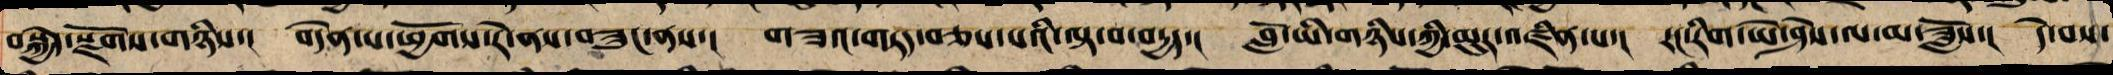བསྐྱེད་སྫོགས་གཉིས་། བདེན་པ་ཕྱོགས་རེ་ནས་བཟུང་ནས་། གཟའ་གཏད་བཅས་པའི་ལྟ་བ་བརྒྱད་། བློ་ཡུལ་གཉིས་ཀྱི་མུར་འཛིན་པས་། རང་རིག་ཡེ་ཤེས་ལ་མ་ཟློས་། དེ་བས་
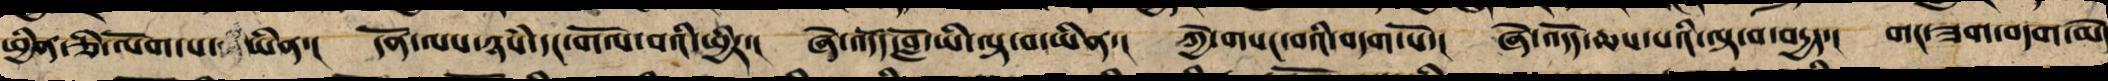ཕྱིན་ཅི་ལོག་པ་ཡིན་། དོན་ལས་ཉཾས་དང་གོལ་བའི་ཕྱིར་། ཞེ་འདོད་བློ་ཡི་ལྟ་བ་ཡིན་། ཀྱེ་གསང་བའི་བདག་པོ་། ཞེ་འདོད་ཆས་པའི་ལྟ་བ་བདྱད་། གང་ཟག་བདག་མེད་
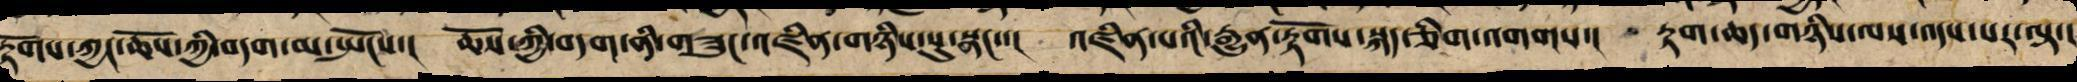རྟོགས་ཀྱང་ཆོས་ཀྱི་བདག་མ་སྤོངས་། ཆོས་ཀྱི་བདག་ནི་གཟུང་འཛིན་གཉིས་སུ་སྣང་་། འཛིན་པའི་རྒྱུན་རྟོག་སྐད་ཅིག་འགགས་། རྟག་ཆད་གཉིས་ལས་འདས་པར་ལྟ་།
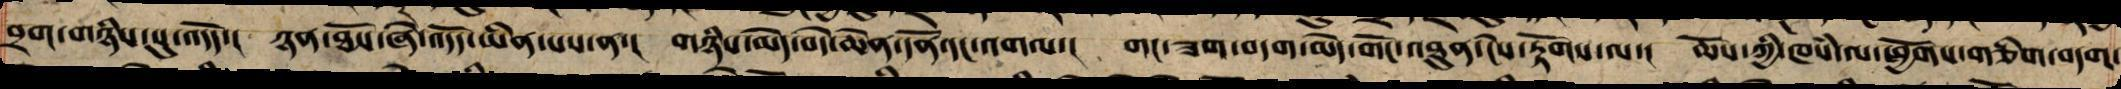བྲག་གཉིས་སུ་འདོད་། ཉན་ཐོས་ཞེ་འདོད་ཡིན་པས་ན་། གཉིས་མེད་བདེ་ཆེན་དོན་དང་འགལ་། གང་ཟག་བདག་མེད་གང་མཐུན་ངེས་རྟོགས་ལ་། ཆོས་ཀྱི་ཁཾས་ལ་ཕྱོགས་གཅིག་བདག་
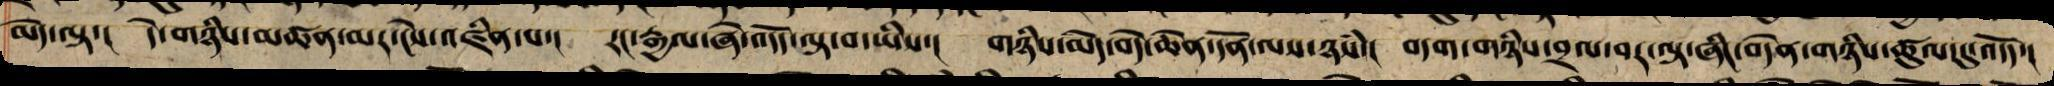མེད་ལྟ་། དེ་གཉིས་མཚན་མར་ངེས་འཛིན་པ་། རང་རྒྱལ་ཞེ་འདོད་ལྟ་བ་ཡིས་། གཉིས་མེད་བདེ་ཆེན་དོན་ལས་ཉཾས་། བདག་གཉིས་བྲལ་བར་ལྟ་ཞིང་བདེན་གཉིས་ཚུལ་དུ་འདོད་།
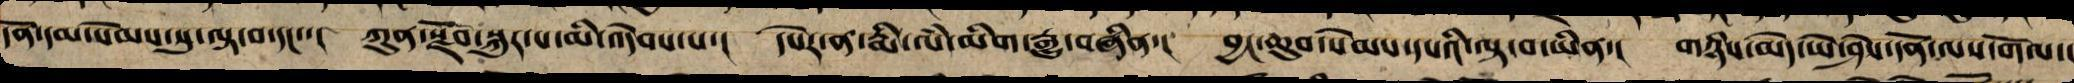དོན་དམ་སེམས་སུ་ལྟ་བ་དང་་། ཀུན་སྫོབ་སྐུར་པ་མི་འདེབས་པ་། དཔེར་ན་རྨི་ལཾ་སྨིག་རྒྱུ་བཞིན་། བྱང་ཆུབ་སེམས་དཔའི་ལྟ་བ་ཡིན་། གཉིས་མེད་ཡེ་ཤེས་དོན་ལས་གོལ་།
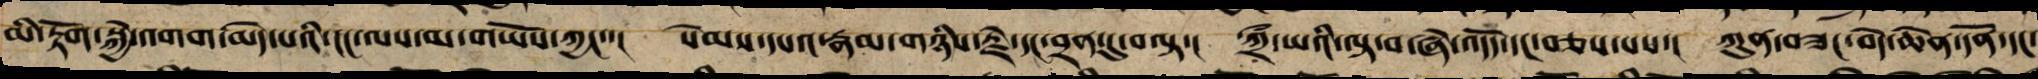མི་རྟོག་སྐྱེ་འགག་མེད་པའི་ངང་ལས་མ་གཡོས་ཀྱང་་། སེམས་དཔའ་རྣམ་གཉིས་རྗེ་དང་བྲན་དུ་བལྟ་། ཀྲྀ་ཡའི་ལྟ་བ་ཞེ་འདོད་དང་བཅས་པས་། ཀུན་བཟང་བདེ་ཆེན་དོན་དང་
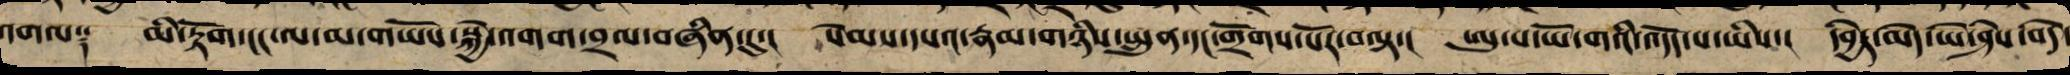འགལ༑ མི་རྟོག་ངང་ལས་མ་གཡོས་སྐྱེ་འགག་བྲལ་བཞིན་དུ་། སེམས་དཔའ་རྣམ་གཉིས་སྤུན་དང་གྲོགས་པོར་བལྟ་། ཨུ་པ་ཡོ་གའི་འདོད་པཡིས་། དབྱེར་མེད་ཡེ་ཤེས་བདེ་
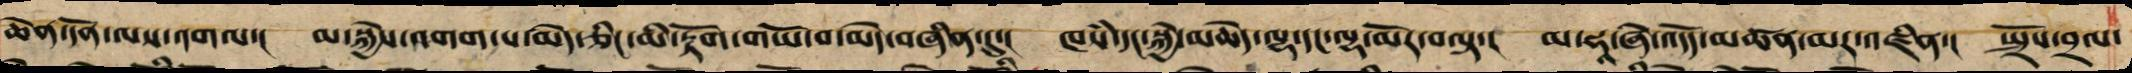ཆེན་དོན་ལས་འགལ་། མ་སྐྱེས་འགག་པ་མེད་ཅིང་མི་རྟོག་གཡོ་བ་མེད་བཞིན་དུ་། ཁཾས་དང་སྐྱེ་མཆེད་ལྷ་དང་ལྷ་མོར་བལྟ་། མ་ཧཱ་ཞེ་འདོད་མཚན་མར་འཛིན་། སྤྲོས་བྲལ་
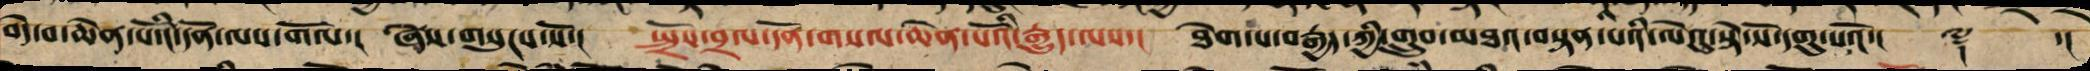བདེ་བ་ཆེན་པོའི་དོན་ལས་གོལ་། ཞེས་གསུངས་སོ་། སྤྲོས་བྲལ་དོན་གསལ་ཆེན་པོའི་རྒྱུད་ལས་། ཐེག་པ་བརྒྱད་ཀྱི་གྲུབ་མཐའ་བསྟན་པའི་ལེའུ་སྟེ་སོ་དགུ་པའོ་།། ༈ ་།།
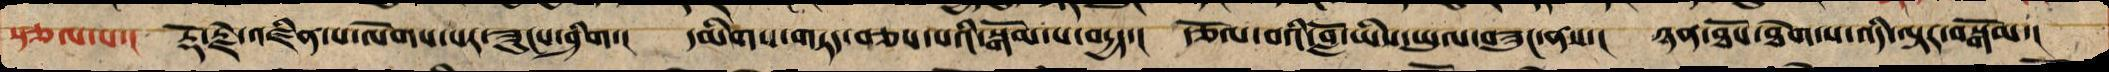སྩལ་པ་། རྡོ་རྗེ་འཛིན་པ་ལེགས་པར་ཟུང་ཤིག་། དམིགས་གཏད་བཅས་པའི་སྒོམས་པ་བདྱད་། རྩོལ་བའི་བློ་ཡིས་ཡུལ་བཟུང་ནས་། ཉན་ཐོས་ཐེག་པས་འདི་ལྟར་བསྒོམ་།
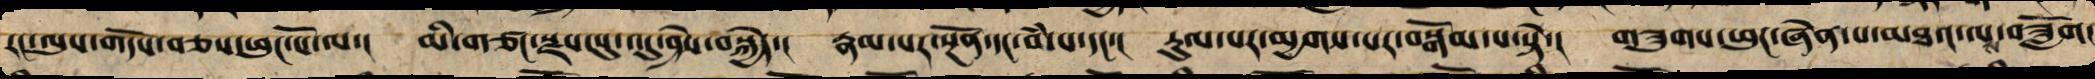རང་ལུས་གདོས་བཅས་ཕུང་པོ་ལ་། མི་གཙང་སྫས་སུ་འདུ་ཤེས་བསྐྱེད་། རྣམ་པར་སྔོ་དང་བྨ་པ་དང་། རུལ་པ་མྱགས་པར་བསྒོམ་པ་སྟེ་། གཟུགས་ཕུང་ཞེན་པའི་མཐའ་ལས་བཟློག་
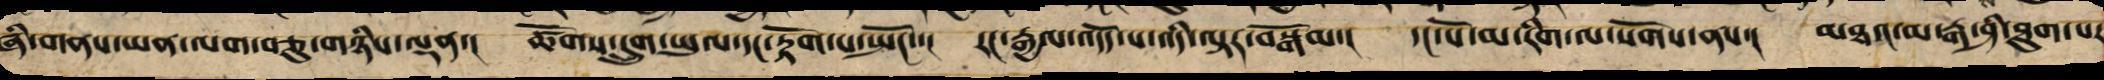ཞི་གནས་ཡན་ལག་བཅུ་གཉིས་ལྡན་། ཚོགས་དྲུག་ཡུལ་དང་རྟོག་པ་སྤོང་་། རང་རྒྱལ་འདོད་པ་འདི་ལྟར་བསྒོམ་། དང་པོ་མ་རིག་པ་ལ་སོགས་ནས་། མཐའ་མ་རྒ་ཤི་ཐུག་པར་
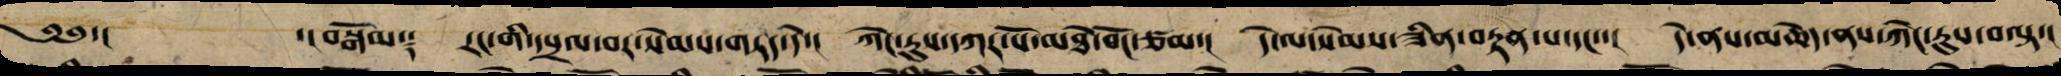༄༅་།  ་།བསྒོམ༑ རང་གི་དཔྲལ་བར་སེམས་གཏད་དེ་། ཀེང་རུས་དཀར་པོ་མཐེབ་ལོང་ཙམ་། དེ་ལ་སེམས་ཟིན་བརྟན་པ་དང་་། དེ་ལས་མཆེད་ནས་ཀེང་རུས་བལྟ་།
